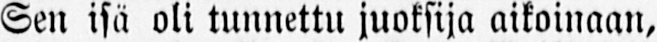Sen isä oli tunnettu juoksija aikoinaan,
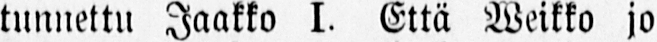tunnettu Jaakko I. Että Weikko jo
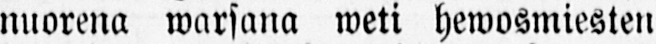nuorena warsana weti hewosmiesten
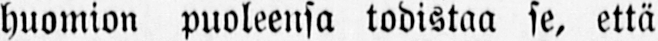huomion puoleensa todistaa se, että
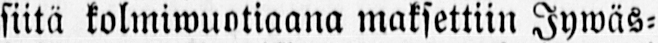siitä kolmiwuotiaana maksettiin Jywäs-
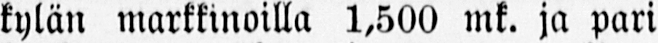kylän markkinoilla 1,500 mk. ja pari
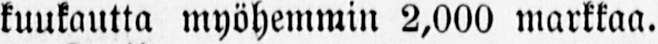kuukautta myöhemmin 2,000 markkaa.
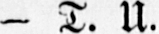- T. U.
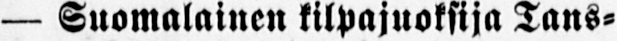— Suomalainen kilpajuoksija Tans-
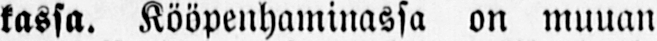kassa. Kööpenhaminassa on muuan
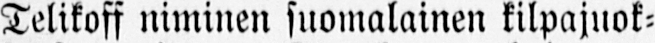Telikoff niminen suomalainen kilpajuok-
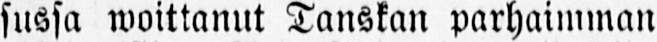sussa woittanut Tanskan parhaimman
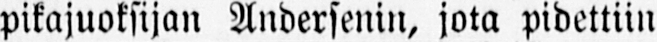pikajuoksijan Andersenin, jota pidettiin
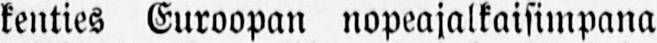kenties Euroopan nopeajalkaisimpana
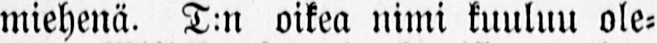miehenä. T:n oikea nimi kuuluu ole-
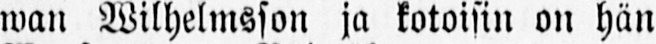wan Wilhelmsson ja kotoisin on hän
